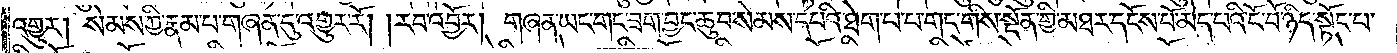འགྱུར། སེམས་ཀྱི་རྣམ་པ་གཞན་དུ་འགྱུར་རོ། །རབ་འབྱོར། གཞན་ཡང་གང་ཟག་བྱང་ཆུབ་སེམས་དཔའི་ཐེག་པ་པ་གང་གིས་སྔོན་གྱི་མཐར་དངོས་པོ་མེད་པའི་ངོ་བོ་ཉིད་སྟོང་པ་
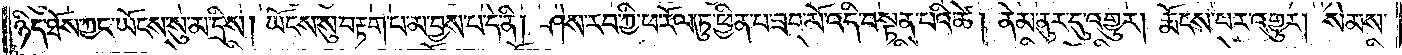ཉིད་ཐོས་ཀྱང་ཡོངས་སུ་མ་དྲིས། ཡོངས་སུ་བརྟག་པ་མ་བྱས་པ་དེ་ནི། ཤེས་རབ་ཀྱི་ཕ་རོལ་ཏུ་ཕྱིན་པ་ཟབ་མོ་འདི་བསྟན་པའི་ཚེ། ནེམ་ནུར་དུ་འགྱུར། རྨོངས་པར་འགྱུར། སེམས་
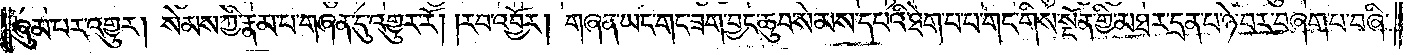ཞུམ་པར་འགྱུར། སེམས་ཀྱི་རྣམ་པ་གཞན་དུ་འགྱུར་རོ། །རབ་འབྱོར། གཞན་ཡང་གང་ཟག་བྱང་ཆུབ་སེམས་དཔའི་ཐེག་པ་པ་གང་གིས་སྔོན་གྱི་མཐར་དྲན་པ་ཉེ་བར་བཞག་པ་བཞི་
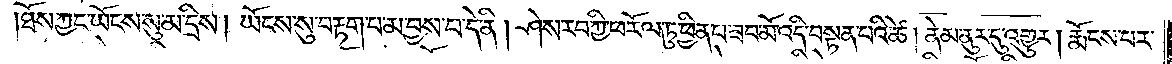ཐོས་ཀྱང་ཡོངས་སུ་མ་དྲིས། ཡོངས་སུ་བརྟག་པ་མ་བྱས་པ་དེ་ནི། ཤེས་རབ་ཀྱི་ཕ་རོལ་ཏུ་ཕྱིན་པ་ཟབ་མོ་འདི་བསྟན་པའི་ཚེ། ནེམ་ནུར་དུ་འགྱུར། རྨོངས་པར་
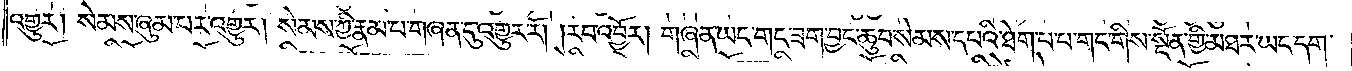འགྱུར། སེམས་ཞུམ་པར་འགྱུར། སེམས་ཀྱི་རྣམ་པ་གཞན་དུ་འགྱུར་རོ། །རབ་འབྱོར། གཞན་ཡང་གང་ཟག་བྱང་ཆུབ་སེམས་དཔའི་ཐེག་པ་པ་གང་གིས་སྔོན་གྱི་མཐར་ཡང་དག་
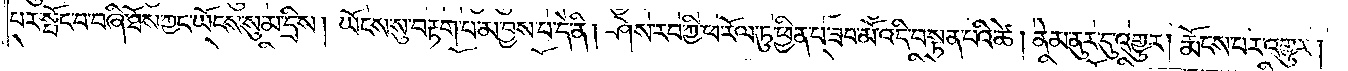པར་སྤོང་བ་བཞི་ཐོས་ཀྱང་ཡོངས་སུ་མ་དྲིས། ཡོངས་སུ་བརྟག་པ་མ་བྱས་པ་དེ་ནི། ཤེས་རབ་ཀྱི་ཕ་རོལ་ཏུ་ཕྱིན་པ་ཟབ་མོ་འདི་བསྟན་པའི་ཚེ། ནེམ་ནུར་དུ་འགྱུར། རྨོངས་པར་འགྱུར།
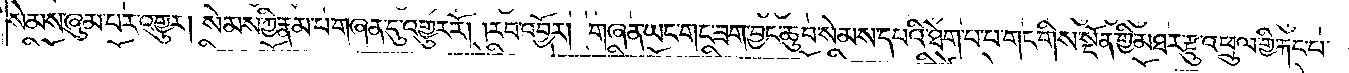སེམས་ཞུམ་པར་འགྱུར། སེམས་ཀྱི་རྣམ་པ་གཞན་དུ་འགྱུར་རོ། །རབ་འབྱོར། གཞན་ཡང་གང་ཟག་བྱང་ཆུབ་སེམས་དཔའི་ཐེག་པ་པ་གང་གིས་སྔོན་གྱི་མཐར་རྫུ་འཕྲུལ་གྱི་རྐང་པ་
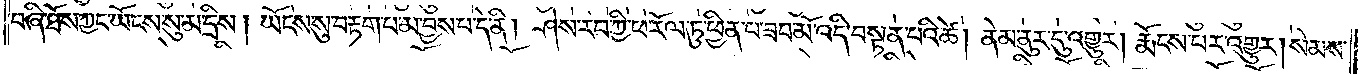བཞི་ཐོས་ཀྱང་ཡོངས་སུ་མ་དྲིས། ཡོངས་སུ་བརྟག་པ་མ་བྱས་པ་དེ་ནི། ཤེས་རབ་ཀྱི་ཕ་རོལ་ཏུ་ཕྱིན་པ་ཟབ་མོ་འདི་བསྟན་པའི་ཚེ། ནེམ་ནུར་དུ་འགྱུར། རྨོངས་པར་འགྱུར། སེམས་
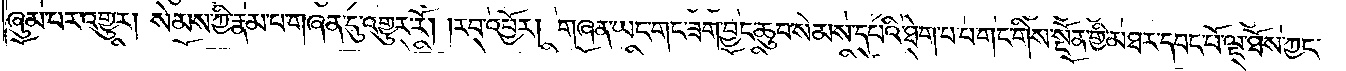ཞུམ་པར་འགྱུར། སེམས་ཀྱི་རྣམ་པ་གཞན་དུ་འགྱུར་རོ། །རབ་འབྱོར། གཞན་ཡང་གང་ཟག་བྱང་ཆུབ་སེམས་དཔའི་ཐེག་པ་པ་གང་གིས་སྔོན་གྱི་མཐར་དབང་པོ་ལྔ་ཐོས་ཀྱང་
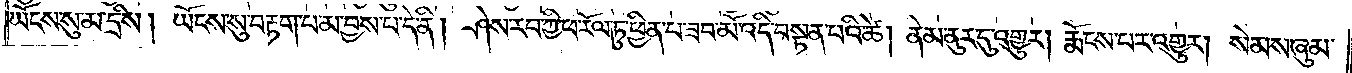ཡོངས་སུ་མ་དྲིས། ཡོངས་སུ་བརྟག་པ་མ་བྱས་པ་དེ་ནི། ཤེས་རབ་ཀྱི་ཕ་རོལ་ཏུ་ཕྱིན་པ་ཟབ་མོ་འདི་བསྟན་པའི་ཚེ། ནེམ་ནུར་དུ་འགྱུར། རྨོངས་པར་འགྱུར། སེམས་ཞུམ་
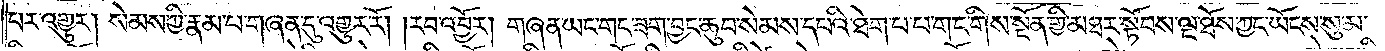པར་འགྱུར། སེམས་ཀྱི་རྣམ་པ་གཞན་དུ་འགྱུར་རོ། །རབ་འབྱོར། གཞན་ཡང་གང་ཟག་བྱང་ཆུབ་སེམས་དཔའི་ཐེག་པ་པ་གང་གིས་སྔོན་གྱི་མཐར་སྟོབས་ལྔ་ཐོས་ཀྱང་ཡོངས་སུ་མ་
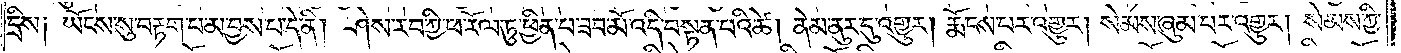དྲིས༑ ཡོངས་སུ་བརྟག་པ་མ་བྱས་པ་དེ་ནི། ཤེས་རབ་ཀྱི་ཕ་རོལ་ཏུ་ཕྱིན་པ་ཟབ་མོ་འདི་བསྟན་པའི་ཚེ། ནེམ་ནུར་དུ་འགྱུར། རྨོངས་པར་འགྱུར། སེམས་ཞུམ་པར་འགྱུར། སེམས་ཀྱི་
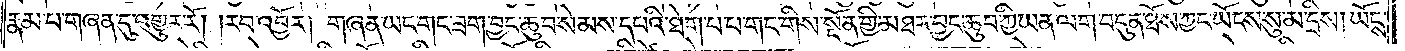རྣམ་པ་གཞན་དུ་འགྱུར་རོ། །རབ་འབྱོར། གཞན་ཡང་གང་ཟག་བྱང་ཆུབ་སེམས་དཔའི་ཐེག་པ་པ་གང་གིས་སྔོན་གྱི་མཐར་བྱང་ཆུབ་ཀྱི་ཡན་ལག་བདུན་ཐོས་ཀྱང་ཡོངས་སུ་མ་དྲིས། ཡོངས་
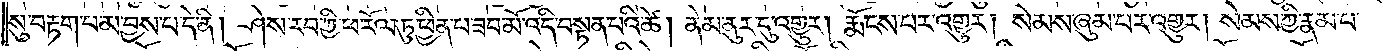སུ་བརྟག་པ་མ་བྱས་པ་དེ་ནི། ཤེས་རབ་ཀྱི་ཕ་རོལ་ཏུ་ཕྱིན་པ་ཟབ་མོ་འདི་བསྟན་པའི་ཚེ། ནེམ་ནུར་དུ་འགྱུར། རྨོངས་པར་འགྱུར། སེམས་ཞུམ་པར་འགྱུར། སེམས་ཀྱི་རྣམ་པ་
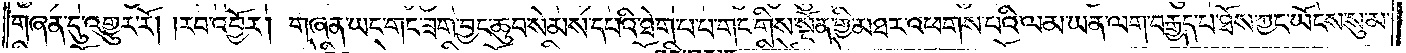གཞན་དུ་འགྱུར་རོ། །རབ་འབྱོར། གཞན་ཡང་གང་ཟག་བྱང་ཆུབ་སེམས་དཔའི་ཐེག་པ་པ་གང་གིས་སྔོན་གྱི་མཐར་འཕགས་པའི་ལམ་ཡན་ལག་བརྒྱད་པ་ཐོས་ཀྱང་ཡོངས་སུ་མ་
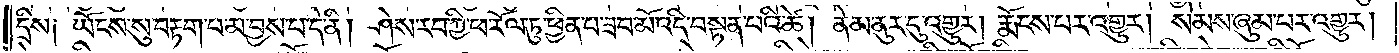དྲིས༑ ཡོངས་སུ་བརྟག་པ་མ་བྱས་པ་དེ་ནི། ཤེས་རབ་ཀྱི་ཕ་རོལ་ཏུ་ཕྱིན་པ་ཟབ་མོ་འདི་བསྟན་པའི་ཚེ། ནེམ་ནུར་དུ་འགྱུར། རྨོངས་པར་འགྱུར། སེམས་ཞུམ་པར་འགྱུར།
